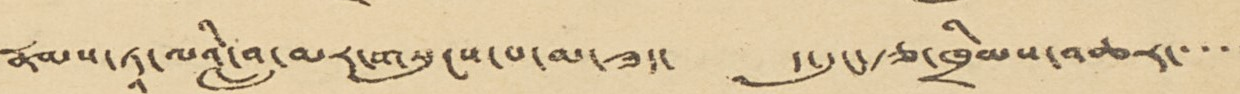རྣམས་ཏཱ་ལའི་བླ་མར་གསུངས་པ་དང་ ད་དུང་རྩ་ཁྲིམས་འཆར་་་་་
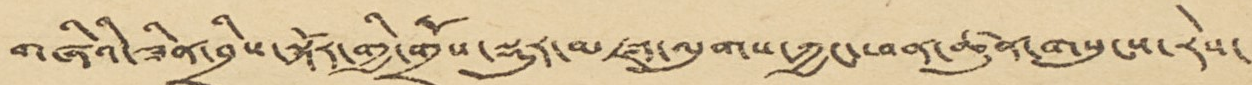གཞིའི་ཟིན་བྲིས་སྐོར་གྱི་གྲོས་སྡུར་མཛད་ལུགས་ཀྱང་ཕན་ཚུན་གསུངས་རེས་
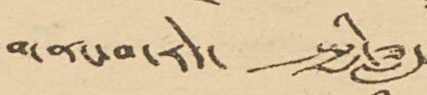གནང་བ་རེད་ སྤྱི་ཟླ་
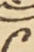༩
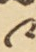༩
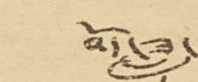བོད་ཟླ་
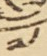༧
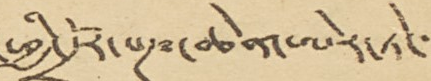ཕྱི་དྲོར་པཎ་ཆེན་ཨེར་ཏེ་་་
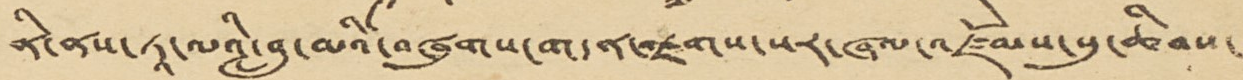ནི་ནས་ཏཱ་ལའི་བླ་མའི་བཞུགས་གདན་འཇགས་སར་ཞལ་འཛོམས་སུ་ཆིབས་
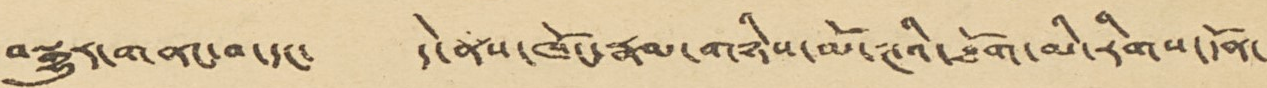བསྒྱུར་གནང་བ་དང་ དེ་ནས་ཁོང་རྣམ་གཉིས་མོ་ཊའི་ཐོག་མི་རིགས་དོན་
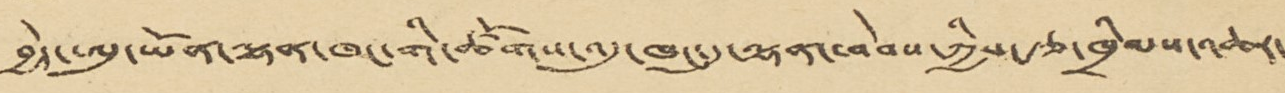བྱེད་ཨུ་ཡོན་ལྷན་ཁང་གི་ཚོགས་འདུ་ཁང་དུ་ལྷན་ཕེབས་ཀྱིས་རྩ་ཁྲིམས་འཆར་
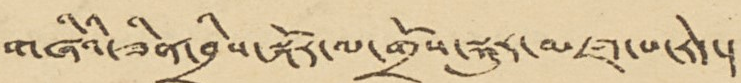གཞིའི་ཟིན་བྲིས་སྐོར་ལ་གྲོས་སྡུར་མཛད་པ་རེད་།
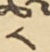༨
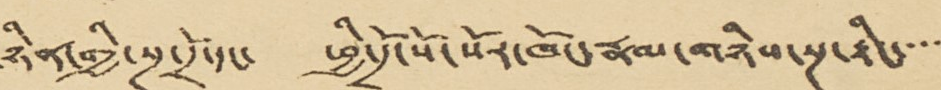ཉིན་གྱི་སྔ་དྲོ་དང་ ཕྱི་དྲོ་སོ་སོར་ཁོང་རྣམ་གཉིས་སྔ་རྟིང་་་་་
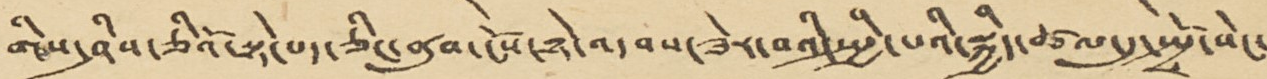གིས་ཤིས་ཅིའི་སྟེ་པད་ཅིང་ནུབ་ངོས་ཉེ་འདབས་ཟེར་བའི་སྤྱི་པའི་སྐྱིད་ཚལ་དུ་སྤྲོ་སེང་
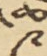༩
